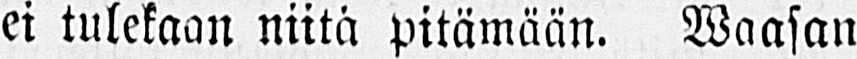ei tulekaan niitä pitämään. Waasan
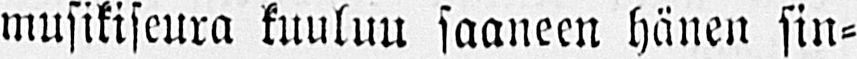musikiseura kuuluu saaneen hänen sin-
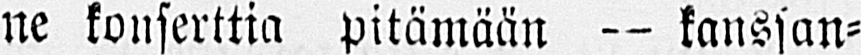ne konserttia pitämään -- kanssan-
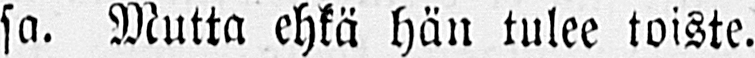sa. Mutta ehkä hän tulee toiste.
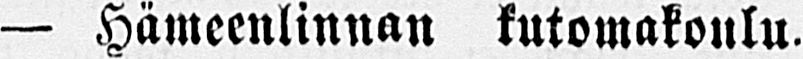— Hämeenlinnan kutomakoulu.
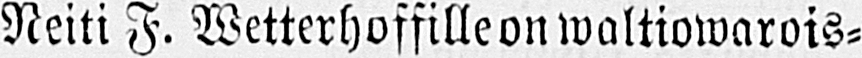Neiti F. Wetterhoffille on waltiowarois-
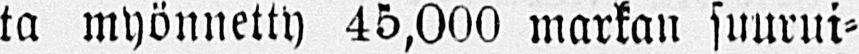ta myönnetty 45,000 markan suurui-
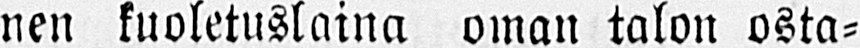nen kuoletuslaina oman talon osta-
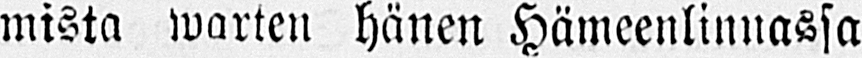mista warten hänen Hämeenlinnassa
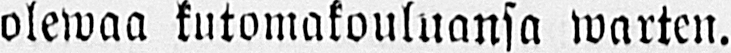olewaa kutomakouluansa warten.
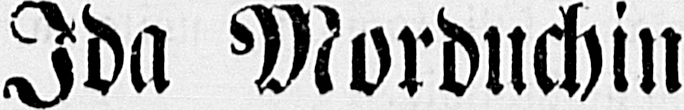Ida Morduchin
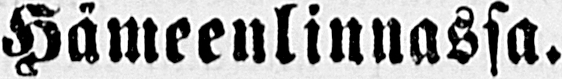Hämeenlinnassa.
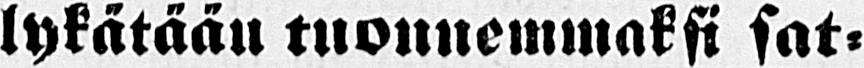lykätään tuonnemmaksi sat-
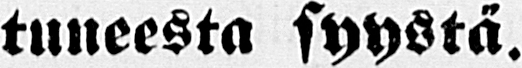tuneesta syystä.
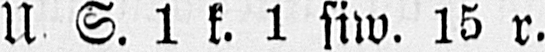U S. 1 k. 1 siw. 15 r.
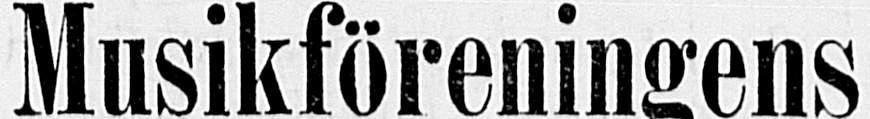Musikföreningens
